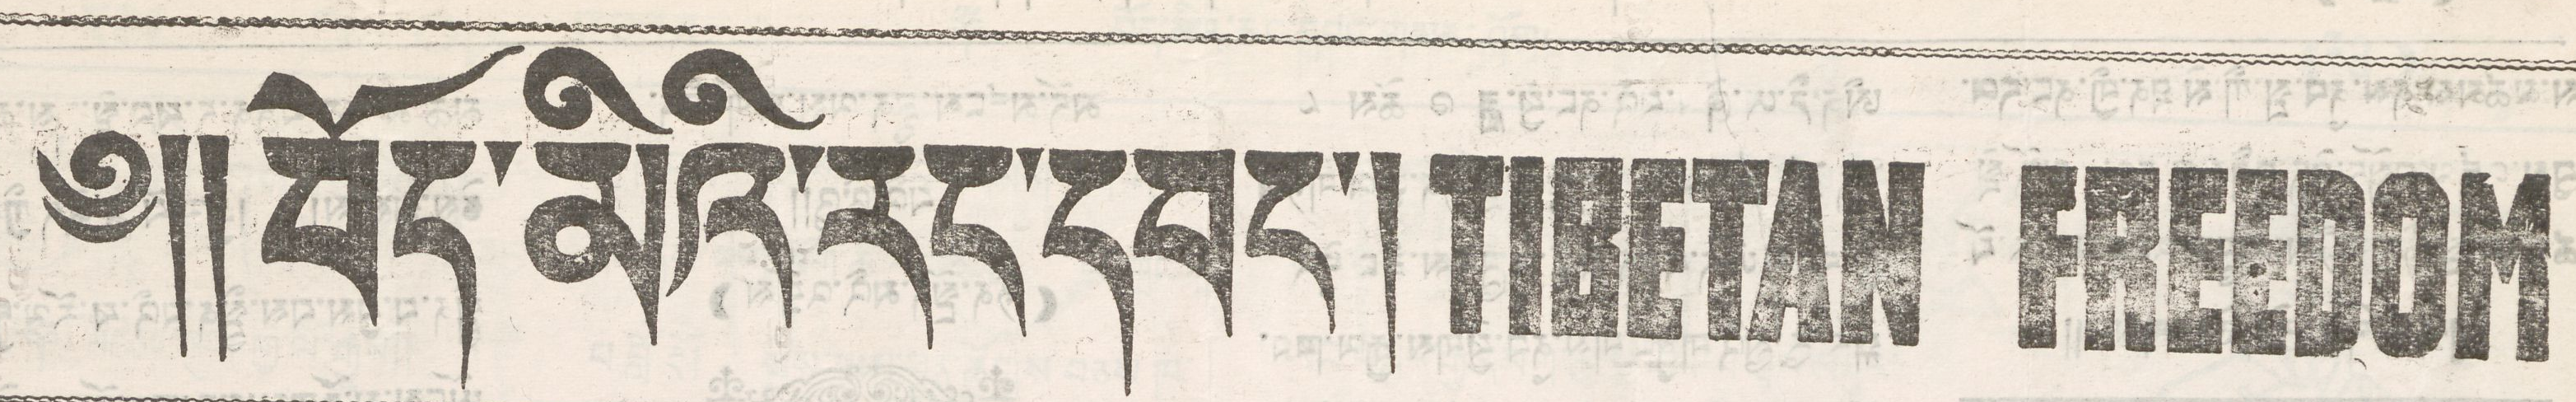༄།། བོད་མིའི་རང་དབང་། TIBETAN FREEDOM
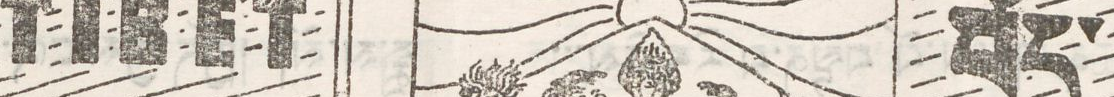TIBET བོད་
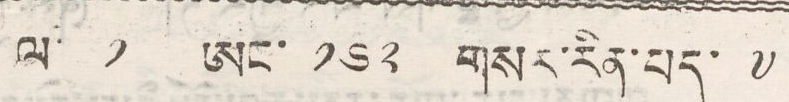ལ་ ༡ ཨང་ གསར་རིན་པད་ ༧
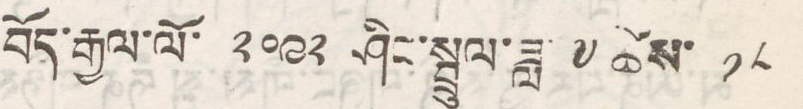བོད་རྒྱལ་ལོ་ ༢༠༩༢ ཤིང་སྦྲུལ་ཟླ ༦ ཚེས་ ༡༨
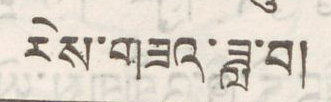རེས་གཟའ་ཟླ་བ།
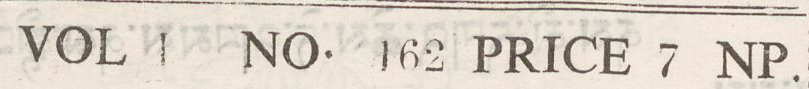VOL NO 162 PRICE 7 NP.
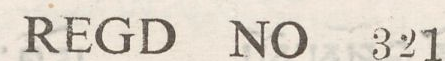REGD NO 321
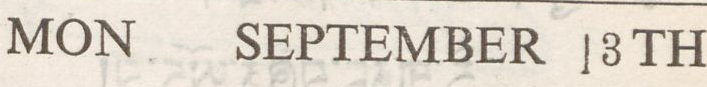MON SEPTEMBER 13TH
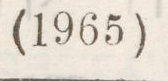(1965)
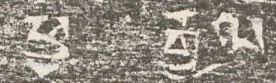ཕྱི་རྒྱལ་
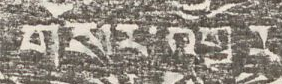གསར་འགྱུར་
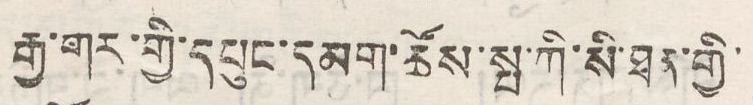རྒྱ་གར་གྱི་དཔུང་དམག་ཚོས་སྤ་ཀི་སི་ཐན་གྱི་
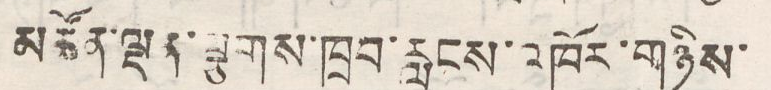མཚོན་ལྡན་ལྕགས་ཁྲབ་རླངས་འཁོར་གཉིས་
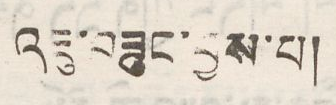འཇུ་བཟུང་བྱས་པ།
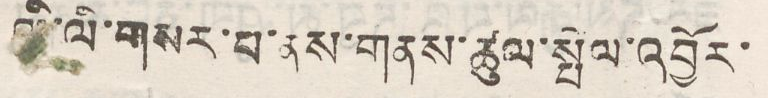ལྡི་ལི་གསར་པ་ནས་གནས་ཚུལ་སྤེལ་འབྱོར་
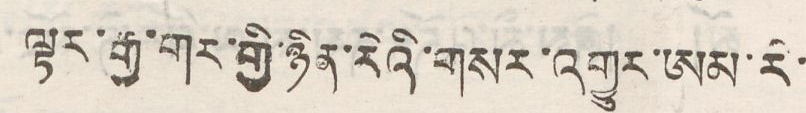ལྟར་རྒྱ་གར་གྱི་ཉིན་རེའི་གསར་འགྱུར་ཨམ་རི་
